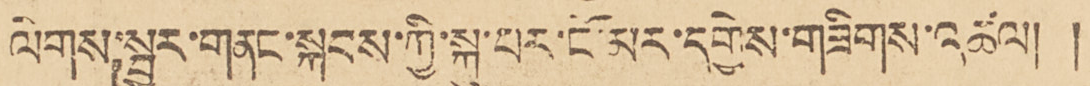ལེགས་སྦྱར་གནང་སྐབས་ཀྱི་སྐུ་པར་ངོ་མར་དགྱེས་གཟིགས་མཚལ། །
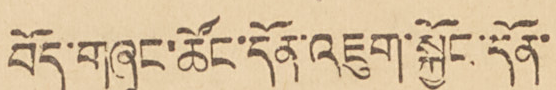བོད་གཞུང་ཚོང་དོན་འཇུག་སྐྱོང་དོན་
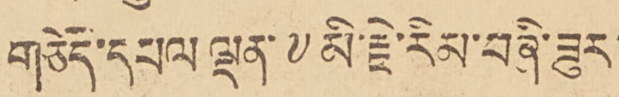གཅོད་དཔལ་ལྡན་༸མི་རྗེ་རིམ་བཞི་ཟུར་
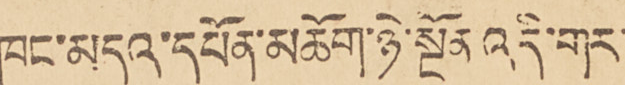ཁང་མདའ་དཔོན་མཆོག་ཉེ་སྔོན འདི་གར་
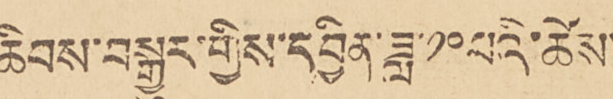ཆིབས་བསྒྱུར་གྱིས་དབྱིན་ཟླ་ ༡༠ པའི་ཚེས་
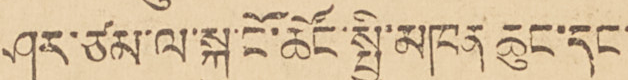ཤར་ཙམ་ལ་སྐུ་ངོ་ཚོང་སྤྱི་མཁན ཆུང་དང་
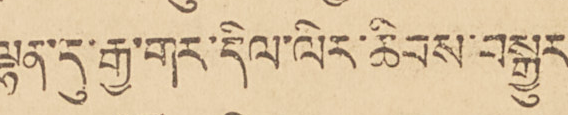ལྷན་དུ་རྒྱ་གར་དིལ་ལིར་ཆིབས་བསྒྱུར་
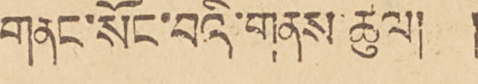གནང་སོང་བའི་གནས་ཚུལ། །
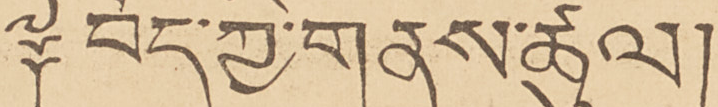༈ བོད་ཀྱི་གནས་ཚུལ།
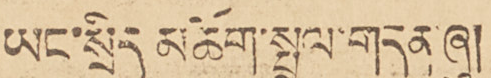ཡང་སྲིད མཆོག་སྤྲུལ་གདན་ཞུ།
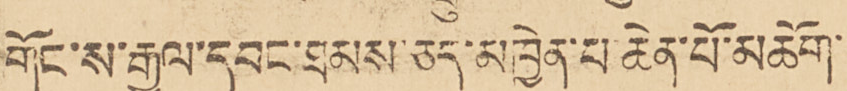གོང་ས་རྒྱལ་དབང་ཐམས་ཅད་མཁྱེན་པ་ཆེན་པོ་མཆོག་
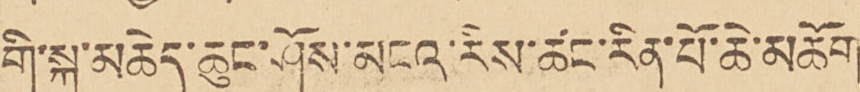གི་སྐུ་མཆེད་ཆུང་ཤོས་མངའ་རིས་ཚང་རིན་པོ་ཆེ་མཆོག
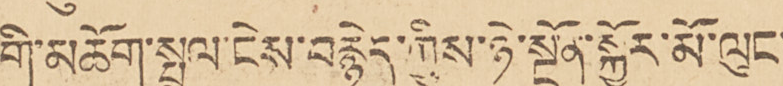གི་མཆོག་སྤྲུལ་ངེས་བརྙེད་ཀྱིས་ཉེ་སྔོན་སྐྱོར་མོ་ལུང་
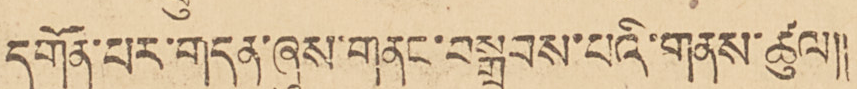དགོན་པར་གདན་ཞུས་གནང་བསྒྲུབས་པའི་གནས་ཚུལ།།
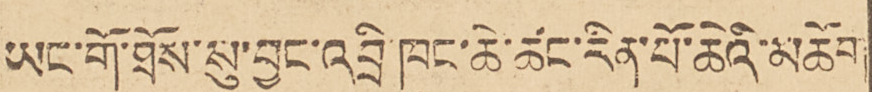ཡང་གོ་ཐོས་སུ་བྱང་འབྲི་ཁུང་ཆེ་ཚང་རིན་པོ་ཆེའི་མཆོག
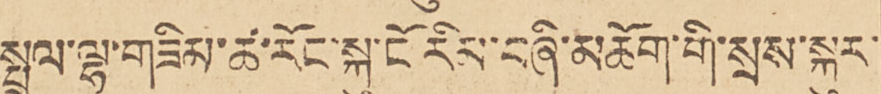སྤྲུལ་ལྷ་གཟིམ་ཚང་རོང་སྐུ་ངོ་རིམ་བཞི་མཆོག་གི་སྲས་སྐུར་
